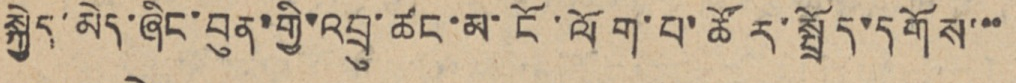སྐྱེད་མེད་ཞིང་བུན་གྱི་འབྲུ་ཚང་མ་ངོ་ལོག་པ་ཚོར་སྤྲོད་དགོས་་་
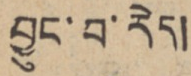བྱུང་བ་རེད།
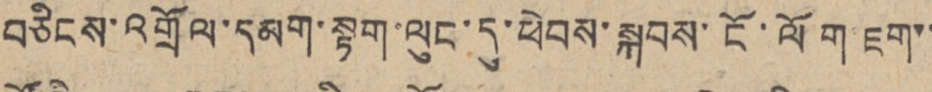བཅིངས་འགྲོལ་དམག་སྟག་ལུང་དུ་ཕེབས་སྐབས་ངོ་ལོག ཇག་་
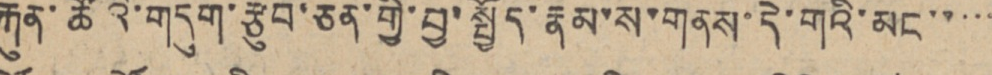རྐུན་ཚོའི་གདུག་རྩུབ་ཅན་གྱི་བྱ་སྤྱོད་རྣམ་ས་གནས་དེ་གའི་མང་་་་་
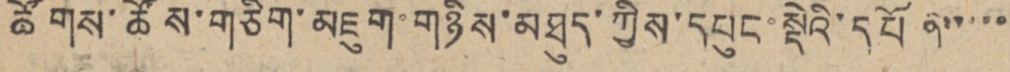ཚོགས་ཚོས་གཅིག་མཇུག་གཉིས་མཐུད་ཀྱིས་དཔུང་སྡེའི་དཔོན་་་་་
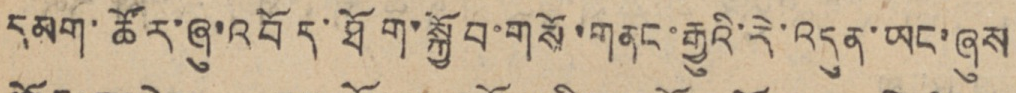དམག་ཚོར་ཞུ་འབོད་ཐོག་སྐྱོབ་གསོ་གནང་རྒྱུའི་རེ་འདུན་ཡང་ཞུས
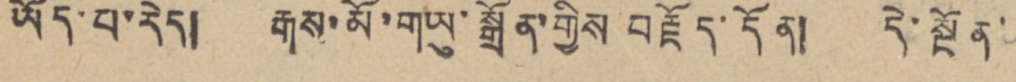ཡོད་པ་རེད། རྒས་མོ་གཡུ་སྒྲོན་གྱིས བརྗོད་དོན། དེ་སྔོན་
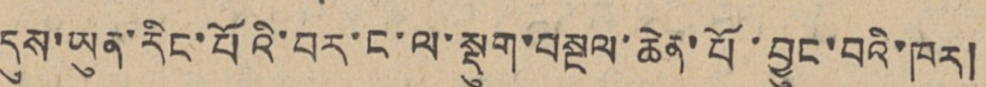དུས་ཡུན་རིང་པོའི་བར་ང་ལ་སྡུག་བསྔལ་ཆེན་པོ་བྱུང་བའི་ཁར།
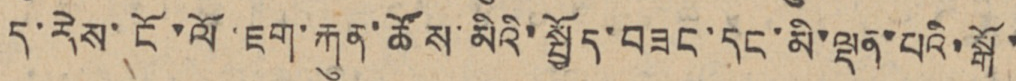ད་རེས་ངོ་ལོ་ཇག་རྐུན་ཚོས་མིའི་སྤྱོད་བཟང་དང་མི་ལྡན་པའི་སྒོ་
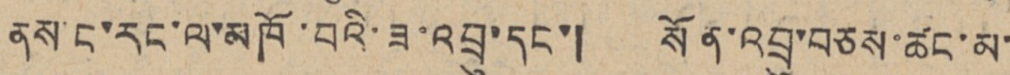ནས་ང་རང་ལ་མཁོ་བའི་ཇ་འབྲུ་དང་། སོན་འབྲུ་བཅས་ཚང་མ་
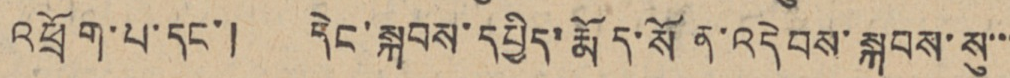འཕྲོག་པ་དང་། དེང་སྐབས་དཔྱིད་རྨོད་སོན་འདེབས་སྐབས་སུ་་་
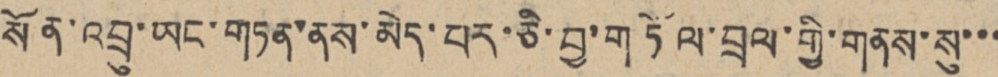སོན་འབྲུ་ཡང་གཏན་ནས་མེད་པར་ཅི་བྱ་གཏོལ་བྲལ་གྱི་གནས་སུ་་་
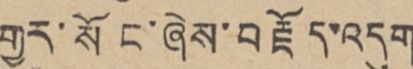གྱར་སོང་ཞེས་བརྗོད་འདུག
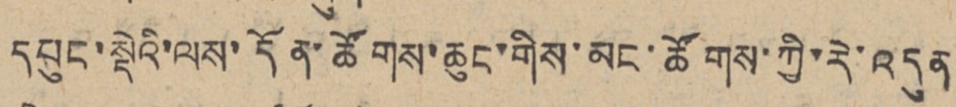དཔུང་སྡེའི་ལས་དོན་ཚོགས་ཆུང་གིས་མང་ཚོགས་ཀྱི་རེ་འདུན
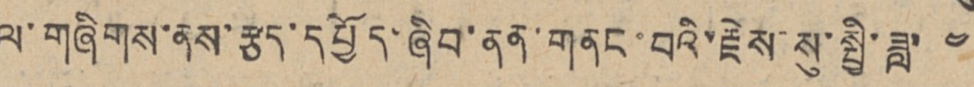ལ་གཞིགས་ནས་རྩད་དཔྱོད་ཞིབ་ནན་གནང་བའི་རྗེས་སུ་སྤྱི་ཟླ་ ༤
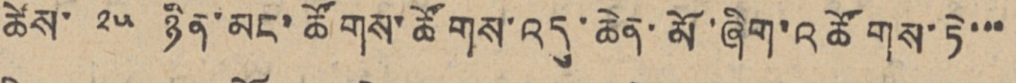ཚེས་ ༢༥ ཉིན་མང་ཚོགས་ཚོགས་འདུ་ཆེན་མོ་ཞིག་འཚོགས་ཏེ་་་
